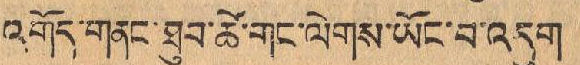འགོད་གནང་ཐུབ་ཚེ་གང་ལེགས་ཡོང་བ་འདུག །
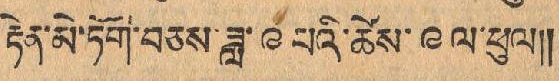རྟེན་མེ་ཏོག་བཅས་ཟླ་ ༩ པའི་ཚེས་ ༩ ལ་ཕུལ།།
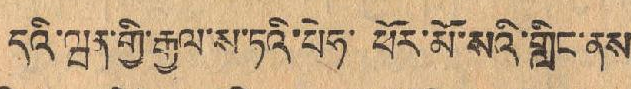དེའི་ཝན་གྱི་རྒྱལ་ས་ཏའི་པེཧ་ ཕོར་མོ་སའི་གླིང་ནས་
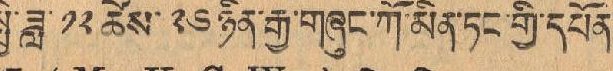སྤྱི་ཟླ་ ༡༢ ཚེས་ ༢༦ ཉིན་རྒྱ་གཞུང་ཀོ་མིན་ཏང་གྱི་དཔོན་
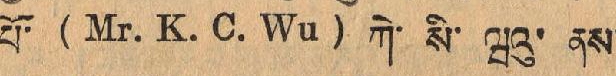པོ་ (Mr. K. C. Wu ) ཀེ་ སི་ ཝའུ་ ནས་
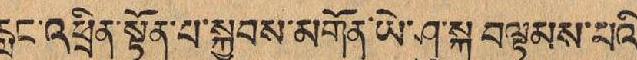རླུང་འཕྲིན་སྟོན་པ་སྐྱབས་མགོན་ཡེ་ཤུ་སྐུ་བལྟམས་པའི་
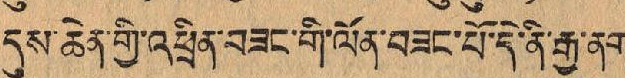དུས་ཆེན་གྱི་འཕྲིན་བཟང་གི་ལོན་བཟང་པོ་དེ་ནི་རྒྱ་ནག་
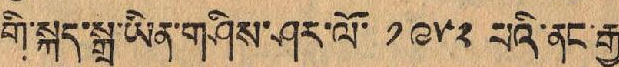གི་སྐད་སྒྲ་ཡིན་གཤིས་ཤར་ལོ་ ༡༩༥༢ པའི་ནང་རྒྱ་
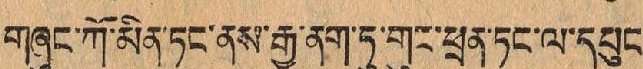གཞུང་ཀོ་མིན་ཏང་ནས་རྒྱ་ནག་ཏུ་གུང་ཕྲན་ཏང་ལ་དཔུང་
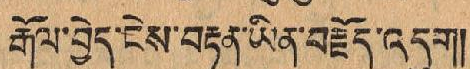རྒོད་བྱེད་ངེས་བརྟན་ཡིན་བརྗོད་འདུག།
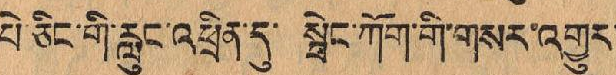པེ་ཅིང་གི་རླུང་འཕྲིན་དུ་ སྦེང་ཀོག་གི་གསར་འགྱུར་
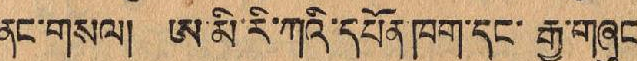ནང་གསལ། ཨ་མི་རི་ཀའི་དཔོན་ཁག་དང་ རྒྱ་གཞུང་
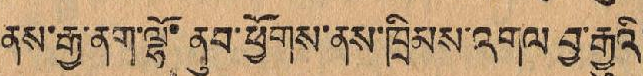ནས་རྒྱ་ནག་ལྷོ་ ནུབ་ཕྱོགས་ནས་ཁྲིམས་འགལ བྱ་རྒྱུའི་
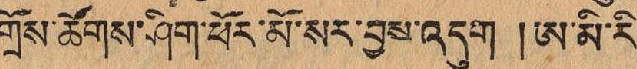གྲོས་ཚོགས་ཤིག་ཕོར་མོ་སར་བྱས་འདུག །ཨ་མི་རི་
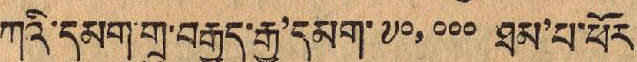ཀའི་དམག་གྲུ་བརྒྱུད་རྒྱ'དམག་ ༧༠,༠༠༠ ཐམ'པ་ཕོར་
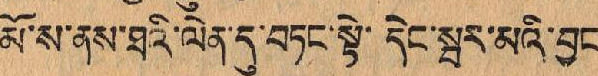མོ་ས་ནས་ཐའི་ལེན་དུ་བཏང་སྟེ་ དེང་སྦར་མའི་བྱང་
